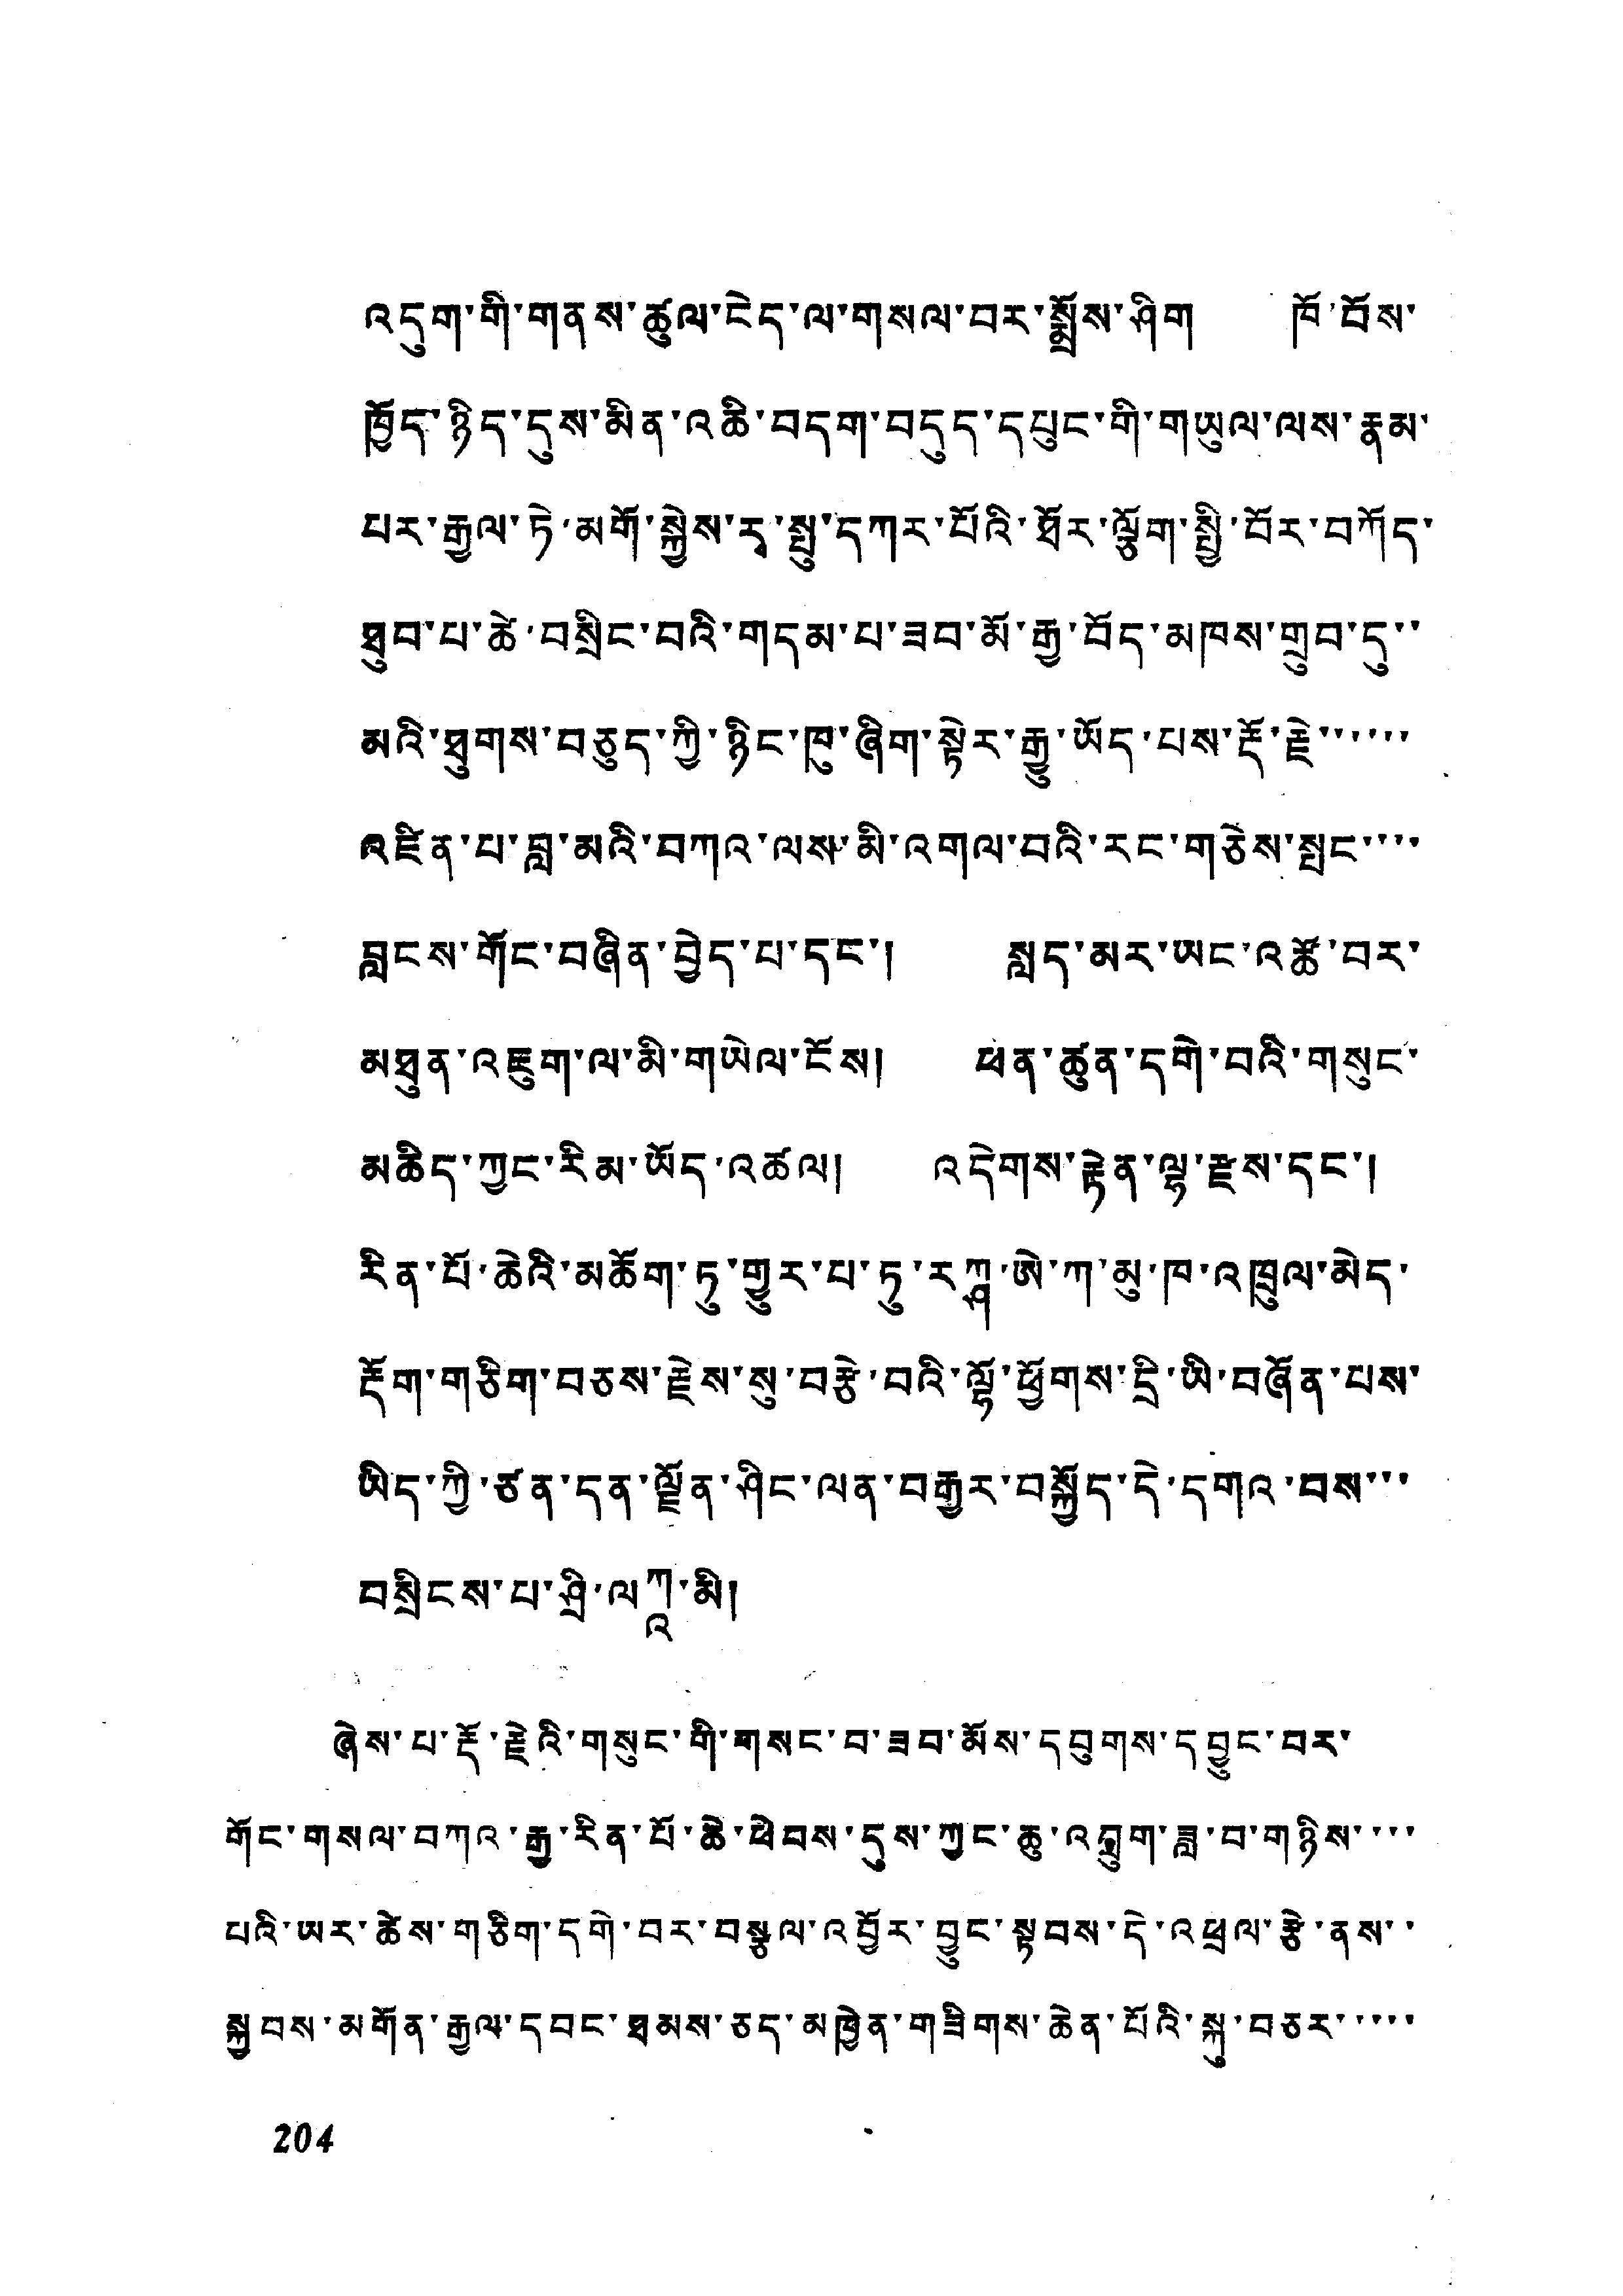འདུག་གི་གནས་ཚུལ་ངེད་ལ་གསལ་བར་སྨྲོས་ཤིག ཁོ་བོས་
ཁྱོད་ཉིད་དུས་མིན་འཆི་བདག་བདུད་དཔུང་གི་གཡུལ་ལས་རྣམ་
པར་རྒྱལ་ཏེ་མགོ་སྐྱེས་རྭ་སྤུ་དཀར་པོའི་ཐོར་ལྕོག་སྤྱི་བོར་བཀོད་
ཐུབ་པ་ཚེ་བསྲིང་བའི་གདམ་པ་ཟབ་མོ་རྒྱ་བོད་མཁས་གྲུབ་དུ་་
མའི་ཐུགས་བཅུད་ཀྱི་ཉིང་ཁུ་ཞིག་སྟེར་རྒྱུ་ཡོད་པས་རྡོ་རྗེ་་་་་་
འཛིན་པ་བླ་མའི་བཀའ་ལས་མི་འགལ་བའི་རང་གཅེས་སྤང་་་་
བླངས་གོང་བཞིན་བྱེད་པ་དང་། སླད་མར་ཡང་འཚོ་བར་
མཐུན་འཇུག་ལ་མི་གཡེལ་ངོས། ཕན་ཚུན་དགེ་བའི་གསུང་
མཆིད་ཀྱང་རིམ་ཡོད་འཚལ། འདེགས་རྟེན་ལྷ་རྫས་དང་།
རིན་པོ་ཆེའི་མཆོག་ཏུ་གྱུར་པ་ཏུ་རཀྴ་ཨེ་ཀ་མུ་ཁ་འཁྲུལ་མེད་
རྡོག་གཅིག་བཅས་རྗེས་སུ་བརྩེ་བའི་ལྷོ་ཕྱོགས་དྲི་ཡི་བཞོན་པས་
ཡིད་ཀྱི་ཙན་དན་ལྗོན་ཤིང་ལན་བརྒྱར་བསྐྱོད་དེ་དགའ་བས་་་
བསྲིངས་པ་ཤྲི་ལཀཱ་མི།
ཞེས་པ་རྡོ་རྗེའི་གསུང་གི་གསང་བ་ཟབ་མོས་དབུགས་དབྱུང་བར་
གོང་གསལ་བཀའ་རྒྱ་རིན་པོ་ཆེ་ཕེབས་དུས་ཀྱང་ཆུ་འབྲུག་ཟླ་བ་གཉིས་་་་
པའི་ཡར་ཚེས་གཅིག་དགེ་བར་བསྩལ་འབྱོར་བྱུང་སྟབས་དེ་འཕྲལ་རྩེ་ནས་་
སྐྱབས་མགོན་རྒྱལ་དབང་ཐམས་ཅད་མཁྱེན་གཟིགས་ཆེན་པོའི་སྐུ་བཅར་་་་་
204
